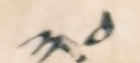༣༠
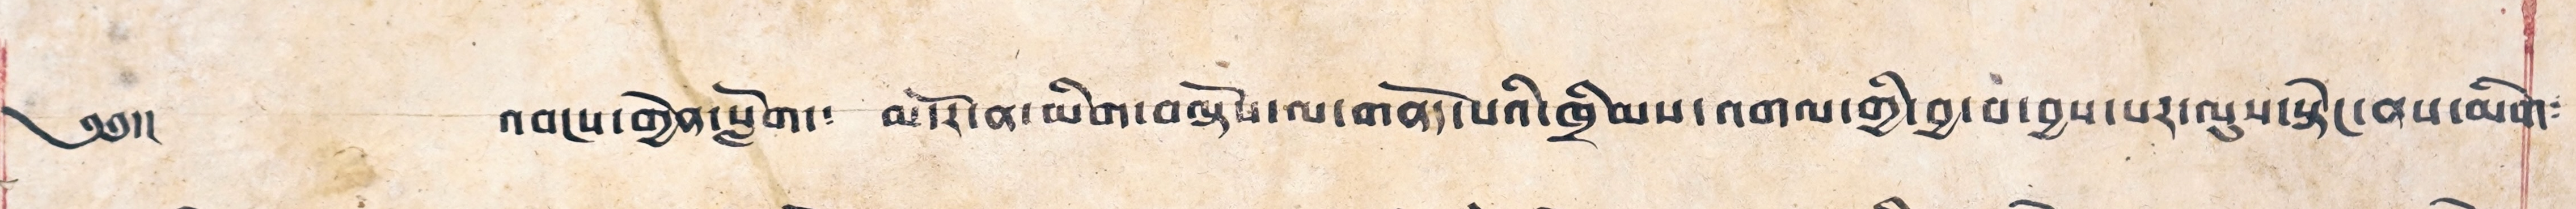༄༅།། འབངས་གྱེན་སློག་༴ མདོར་ན་མིག་བལྟོས་ལ་གནོད་པའི་ཁྲིམས་འགལ་གྱི་བྱ་བ་བྱས་པར་ལུས་སྟེང་ནས་མིག༴
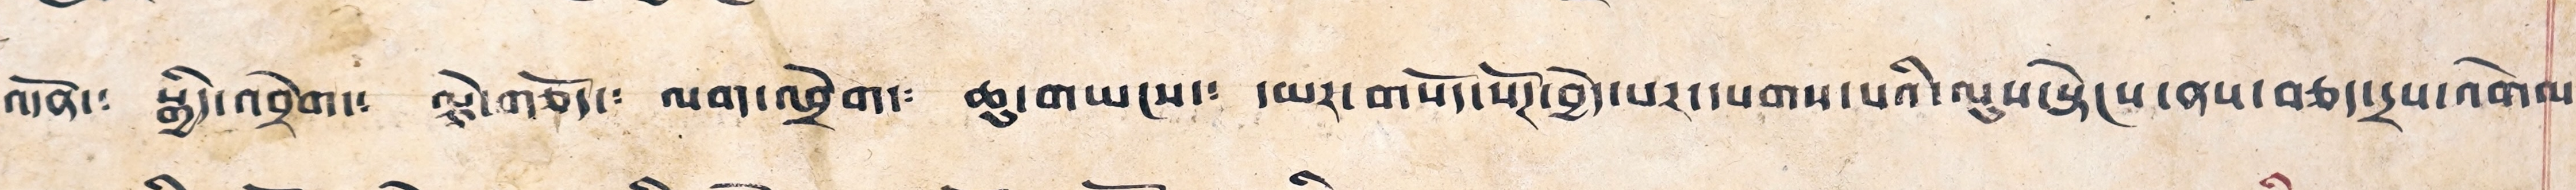འདོན་༴ སྒྱིད་འབྲེག་༴ ལྕེ་གཅོད་༴ ལག་འབྲེག་༴ ཆུ་གཡངས་༴ དམར་གསོད་སོགས་བྱེད་པར་དཔགས་པའི་ལུས་སྟེངས་ནས་བཅད་དྲས་འགེལ༴
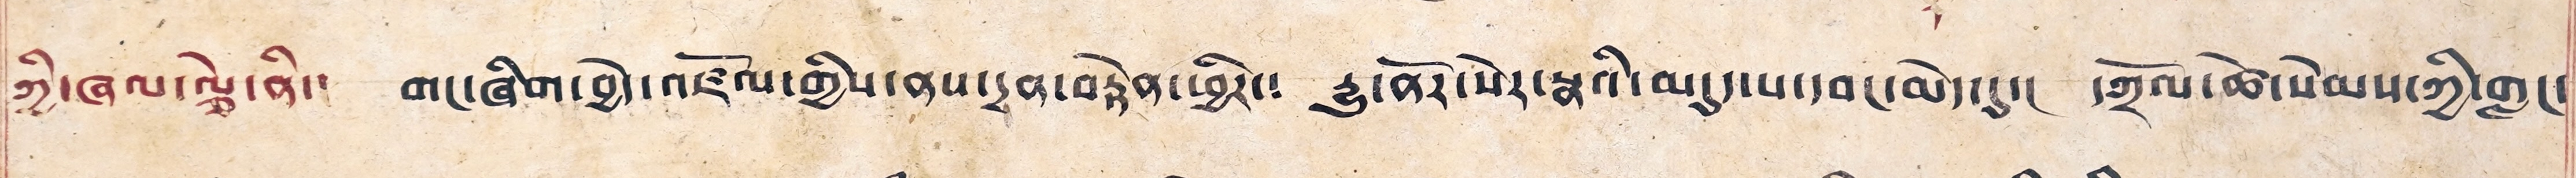ཀྱི་ཞལ་ལྕེ་ནི་། གང་ཞིག་བྱེད་འཛོལ་གྱིས་ནས་དྲན་བརྟེན་ཕྱིར་༴ རྒྱུ་ནོར་སེར་སྣའི་མདུད་པ་དབང་མེད་དུ་། དཀྲོལ་ཚེ་སེམས་ཀྱི་གླང་
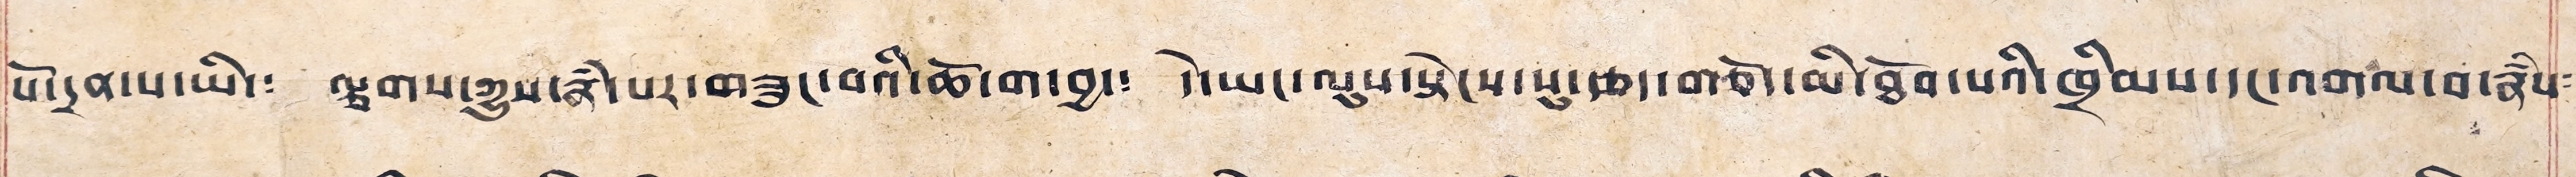པོ་དྲན་པ་ཡི་༴ ལྕགས་ཀྱུས་རྣམ་པར་གཟུང་བའི་ཆོ་ག་བྱ་༴ དེ་ཡང་ལུས་སྟེངས་པ་རྩད་གཅོད་མི་ཐོབ་པའི་ཁྲིམས་དང་འགལ་བ་རྣཾས༴
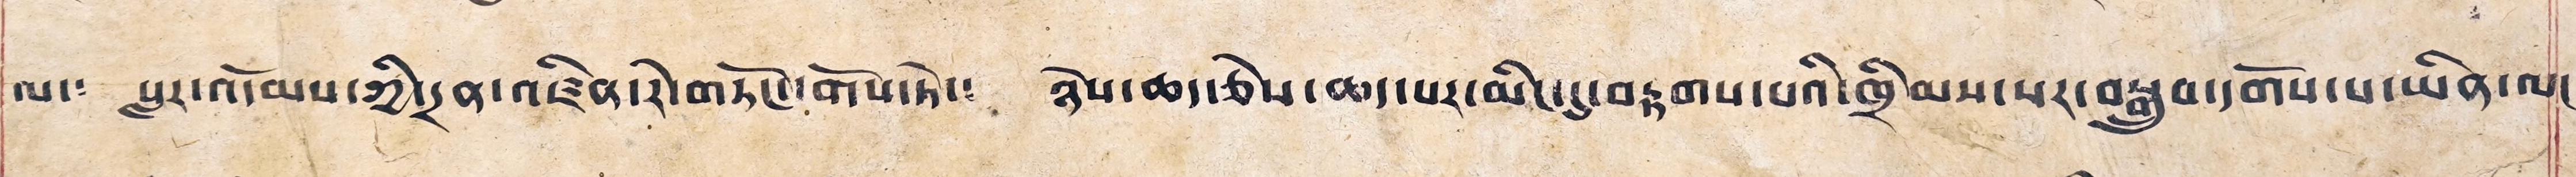ལ་༴ སླར་འདོམས་ཀྱི་དྲན་འཛིན་རེ་གཏོང་དགོས་ཏེ་༴ ཉེས་ཆད་ཅེས་ཆད་པར་མིང་དུ་བརྟགས་པའི་ཁྲིམས་སར་བསྒྲུབ་དགོས་པ་ཡིན་ལ།
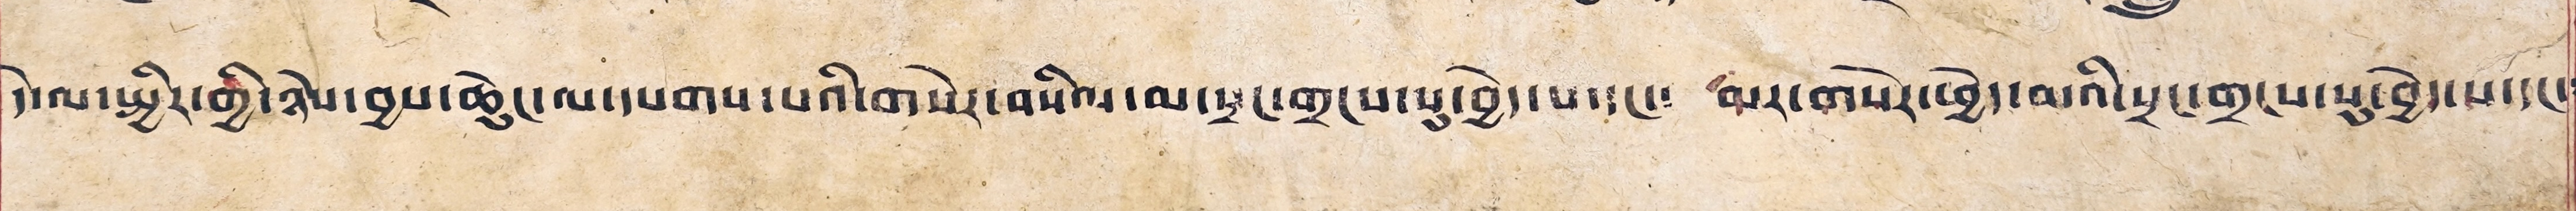དེ་ལ་སྤྱིར་གྱི་ཉེས་བྱས་ཆེུང་ལ་དཔགས་པའི་གསེར་བསིལ་མ་སྲང་གྲངས་སུ་བྱེད་པ་དང་༴ མར་གསེར་ཕྱེད་མའི་སྲང་གྲངས་སུ་བྱེད་པ་དང་༴
